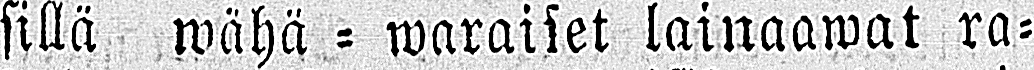sillä wähä - waraiset lainaawat ra-
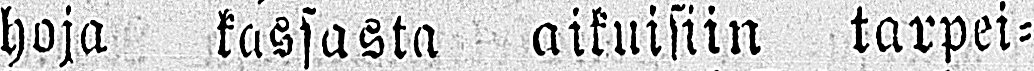hoja kassasta aikuisiin tarpei-
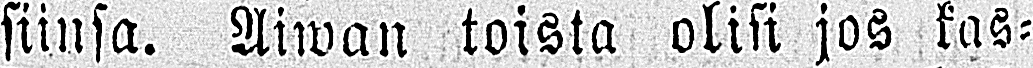siinsa. Aiwan toista olisi jos kas-
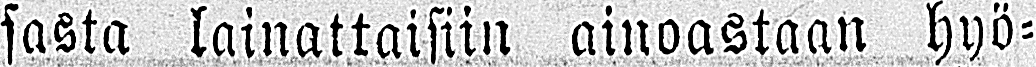sasta lainattaisiin ainoastaan hyö-
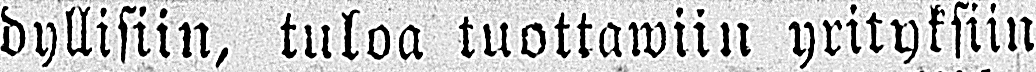dyllisiin, tuloa tuottawiin yrityksiin
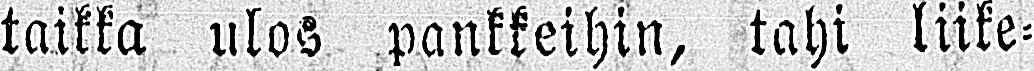taikka ulos pankkeihin, tahi liike-
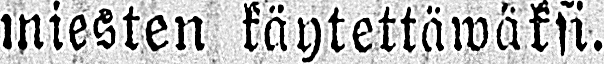miesten käytettäwäksi.
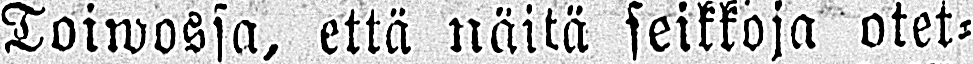Toiwossa, että näitä seikkoja otet-
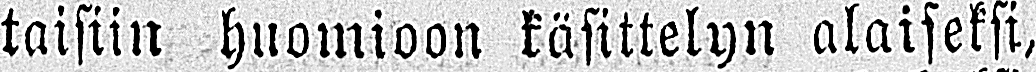taisiin huomioon käsittelyn alaiseksi,
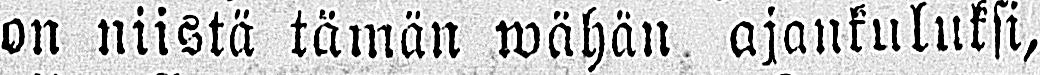on niistä tämän wähän ajankuluksi,
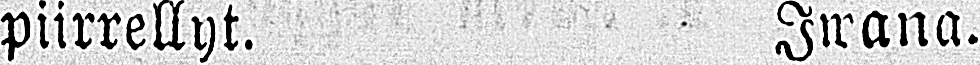piirrellyt. Iwana.
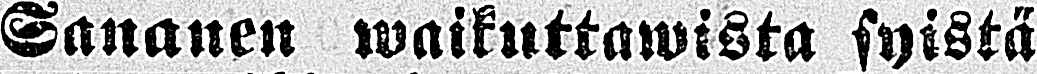Sananen waikuttawista syistä
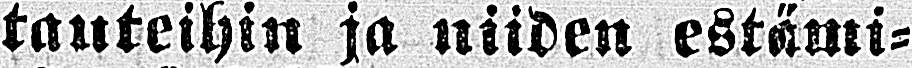tauteihin ja niiden estämi-
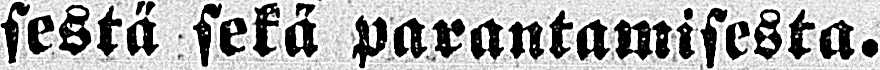sestä sekä parantamisesta.
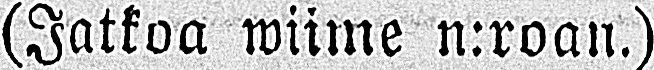(Jatkoa wiime n:roan.)
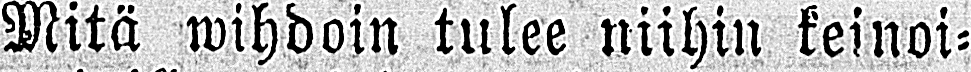Mitä wihdoin tulee niihin keinoi-
